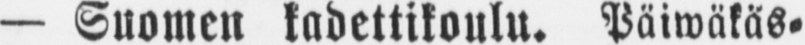— Suomen kadettikoulu. Päiwäkäs-
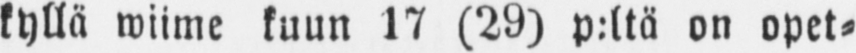kyllä wiime kuun 17 (29) p:ltä on opet-
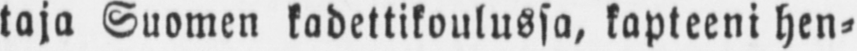taja Suomen kadettikoulussa, kapteeni hen-
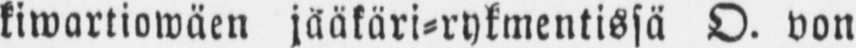kiwartiowäen jääkäri-rykmentissä O. von
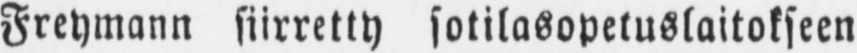Freymann siirretty sotilasopetuslaitokseen
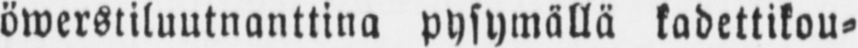öwerstiluutnanttina pysymällä kadettikou-
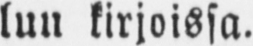lun kirjoissa.
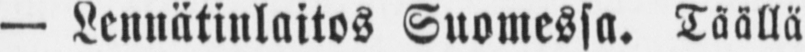— Lenn ätinlaitos Suomessa. Täällä
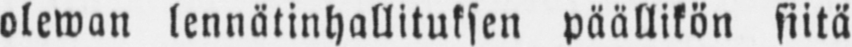olewan lennätinhallituksen päällikön siitä
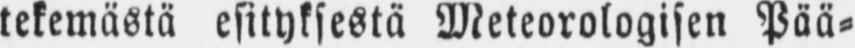tekemästä esitykstä Meteorologisen Pää-
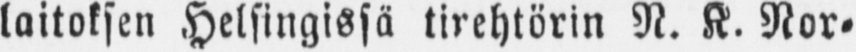laitoksen Helsingissä tirehtörin N. K. Nor-
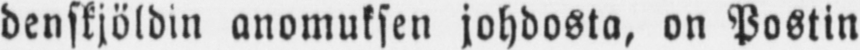denskiöldin anomuksen johdosta, on Postin
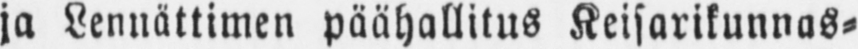ja Lennättimen päähallitus Keisarikunnas-
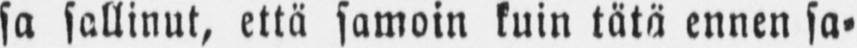sa sallinut, että samoin kuin tätä ennen sa-
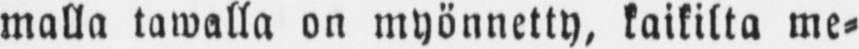malla tawalla on myönnetty, kaikilta me-
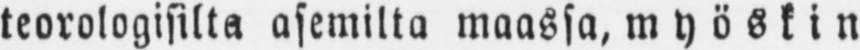teorologisilta asemilta maassa, myöskin
